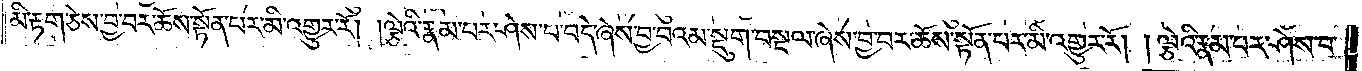མི་རྟག་ཅེས་བྱ་བར་ཆོས་སྟོན་པར་མི་འགྱུར་རོ། །ལྕེའི་རྣམ་པར་ཤེས་པ་བདེ་ཞེས་བྱ་བའམ་སྡུག་བསྔལ་ཞེས་བྱ་བར་ཆོས་སྟོན་པར་མི་འགྱུར་རོ། །ལྕེའི་རྣམ་པར་ཤེས་པ་
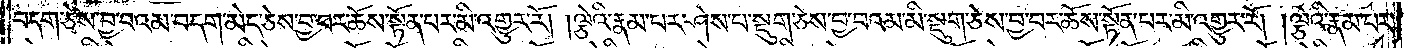བདག་ཅེས་བྱ་བའམ་བདག་མེད་ཅེས་བྱ་བར་ཆོས་སྟོན་པར་མི་འགྱུར་རོ། །ལྕེའི་རྣམ་པར་ཤེས་པ་སྡུག་ཅེས་བྱ་བའམ་མི་སྡུག་ཅེས་བྱ་བར་ཆོས་སྟོན་པར་མི་འགྱུར་རོ། །ལྕེའི་རྣམ་པར་
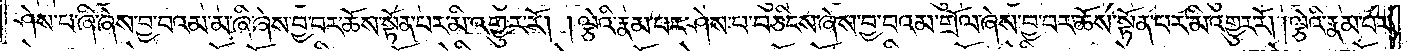ཤེས་པ་ཞི་ཞེས་བྱ་བའམ་མ་ཞི་ཞེས་བྱ་བར་ཆོས་སྟོན་པར་མི་འགྱུར་རོ། །ལྕེའི་རྣམ་པར་ཤེས་པ་བཅིངས་ཞེས་བྱ་བའམ་གྲོལ་ཞེས་བྱ་བར་ཆོས་སྟོན་པར་མི་འགྱུར་རོ། །ལྕེའི་རྣམ་པར་
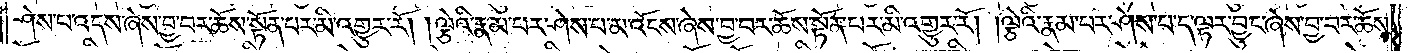ཤེས་པ་འདས་ཞེས་བྱ་བར་ཆོས་སྟོན་པར་མི་འགྱུར་རོ། །ལྕེའི་རྣམ་པར་ཤེས་པ་མ་འོངས་ཞེས་བྱ་བར་ཆོས་སྟོན་པར་མི་འགྱུར་རོ། །ལྕེའི་རྣམ་པར་ཤེས་པ་ད་ལྟར་བྱུང་ཞེས་བྱ་བར་ཆོས་
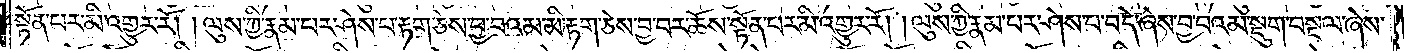སྟོན་པར་མི་འགྱུར་རོ། །ལུས་ཀྱི་རྣམ་པར་ཤེས་པ་རྟག་ཅེས་བྱ་བའམ་མི་རྟག་ཅེས་བྱ་བར་ཆོས་སྟོན་པར་མི་འགྱུར་རོ། །ལུས་ཀྱི་རྣམ་པར་ཤེས་པ་བདེ་ཞེས་བྱ་བའམ་སྡུག་བསྔལ་ཞེས་
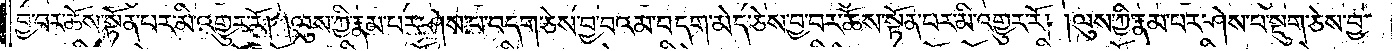བྱ་བར་ཆོས་སྟོན་པར་མི་འགྱུར་རོ། །ལུས་ཀྱི་རྣམ་པར་ཤེས་པ་བདག་ཅེས་བྱ་བའམ་བདག་མེད་ཅེས་བྱ་བར་ཆོས་སྟོན་པར་མི་འགྱུར་རོ། །ལུས་ཀྱི་རྣམ་པར་ཤེས་པ་སྡུག་ཅེས་བྱ་
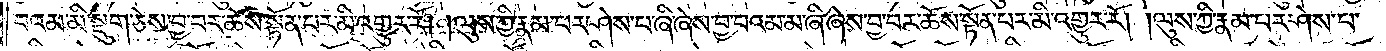བའམ་མི་སྡུག་ཅེས་བྱ་བར་ཆོས་སྟོན་པར་མི་འགྱུར་རོ། །ལུས་ཀྱི་རྣམ་པར་ཤེས་པ་ཞི་ཞེས་བྱ་བའམ་མ་ཞི་ཞེས་བྱ་བར་ཆོས་སྟོན་པར་མི་འགྱུར་རོ། །ལུས་ཀྱི་རྣམ་པར་ཤེས་པ་
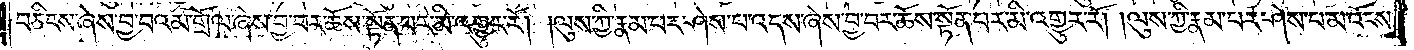བཅིངས་ཞེས་བྱ་བའམ་གྲོལ་ཞེས་བྱ་བར་ཆོས་སྟོན་པར་མི་འགྱུར་རོ། །ལུས་ཀྱི་རྣམ་པར་ཤེས་པ་འདས་ཞེས་བྱ་བར་ཆོས་སྟོན་པར་མི་འགྱུར་རོ། །ལུས་ཀྱི་རྣམ་པར་ཤེས་པ་མ་འོངས་
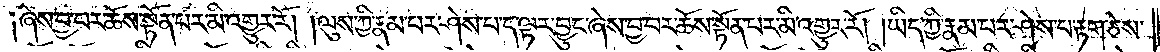ཞེས་བྱ་བར་ཆོས་སྟོན་པར་མི་འགྱུར་རོ། །ལུས་ཀྱི་རྣམ་པར་ཤེས་པ་ད་ལྟར་བྱུང་ཞེས་བྱ་བར་ཆོས་སྟོན་པར་མི་འགྱུར་རོ། །ཡིད་ཀྱི་རྣམ་པར་ཤེས་པ་རྟག་ཅེས་
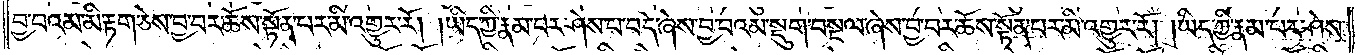བྱ་བའམ་མི་རྟག་ཅེས་བྱ་བར་ཆོས་སྟོན་པར་མི་འགྱུར་རོ། །ཡིད་ཀྱི་རྣམ་པར་ཤེས་པ་བདེ་ཞེས་བྱ་བའམ་སྡུག་བསྔལ་ཞེས་བྱ་བར་ཆོས་སྟོན་པར་མི་འགྱུར་རོ། །ཡིད་ཀྱི་རྣམ་པར་ཤེས་
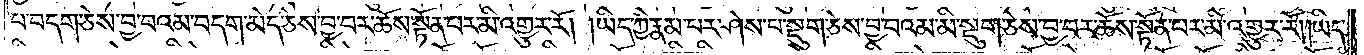པ་བདག་ཅེས་བྱ་བའམ་བདག་མེད་ཅེས་བྱ་བར་ཆོས་སྟོན་པར་མི་འགྱུར་རོ། །ཡིད་ཀྱི་རྣམ་པར་ཤེས་པ་སྡུག་ཅེས་བྱ་བའམ་མི་སྡུག་ཅེས་བྱ་བར་ཆོས་སྟོན་པར་མི་འགྱུར་རོ། །ཡིད་
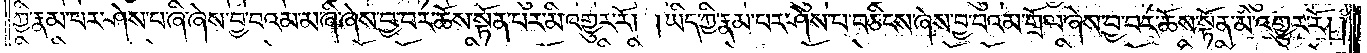ཀྱི་རྣམ་པར་ཤེས་པ་ཞི་ཞེས་བྱ་བའམ་མ་ཞི་ཞེས་བྱ་བར་ཆོས་སྟོན་པར་མི་འགྱུར་རོ། །ཡིད་ཀྱི་རྣམ་པར་ཤེས་པ་བཅིངས་ཞེས་བྱ་བའམ་གྲོལ་ཞེས་བྱ་བར་ཆོས་སྟོན་པར་མི་འགྱུར་རོ། །
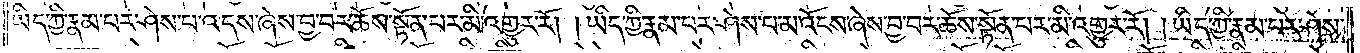ཡིད་ཀྱི་རྣམ་པར་ཤེས་པ་འདས་ཞེས་བྱ་བར་ཆོས་སྟོན་པར་མི་འགྱུར་རོ། །ཡིད་ཀྱི་རྣམ་པར་ཤེས་པ་མ་འོངས་ཞེས་བྱ་བར་ཆོས་སྟོན་པར་མི་འགྱུར་རོ། །ཡིད་ཀྱི་རྣམ་པར་ཤེས་
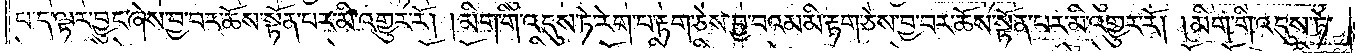པ་ད་ལྟར་བྱུང་ཞེས་བྱ་བར་ཆོས་སྟོན་པར་མི་འགྱུར་རོ། །མིག་གི་འདུས་ཏེ་རེག་པ་རྟག་ཅེས་བྱ་བའམ་མི་རྟག་ཅེས་བྱ་བར་ཆོས་སྟོན་པར་མི་འགྱུར་རོ། །མིག་གི་འདུས་ཏེ་
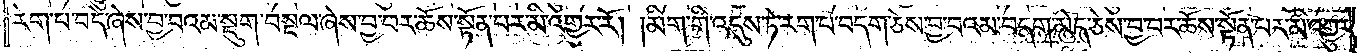རེག་པ་བདེ་ཞེས་བྱ་བའམ་སྡུག་བསྔལ་ཞེས་བྱ་བར་ཆོས་སྟོན་པར་མི་འགྱུར་རོ། །མིག་གི་འདུས་ཏེ་རེག་པ་བདག་ཅེས་བྱ་བའམ་བདག་མེད་ཅེས་བྱ་བར་ཆོས་སྟོན་པར་མི་འགྱུར་
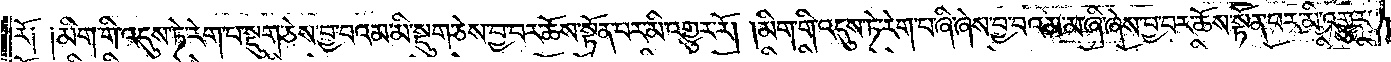རོ༑ ༑མིག་གི་འདུས་ཏེ་རེག་པ་སྡུག་ཅེས་བྱ་བའམ་མི་སྡུག་ཅེས་བྱ་བར་ཆོས་སྟོན་པར་མི་འགྱུར་རོ། །མིག་གི་འདུས་ཏེ་རེག་པ་ཞི་ཞེས་བྱ་བའམ་མ་ཞི་ཞེས་བྱ་བར་ཆོས་སྟོན་པར་མི་འགྱུར་
